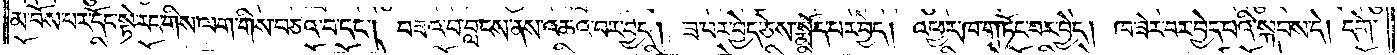མ་བོས་པར་དོང་སྟེ་རང་གིས་ལག་གིས་བཅའ་བ་དང༌། བཟའ་བ་བླངས་ནས་འཆའ་བར་བྱེད། ཟ་བར་བྱེད་ཅེས་སྨོད་པར་བྱེད། འཕྱར་ཁ་གཏོང་བར་བྱེད། ཁ་ཟེར་བར་བྱེད་པའི་སྐབས་དེ། དགེ་
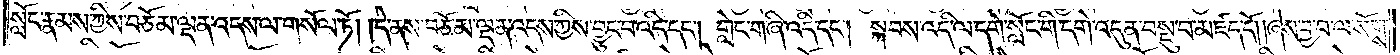སློང་རྣམས་ཀྱིས་བཅོམ་ལྡན་འདས་ལ་གསོལ་ཏོ། །དེ་ནས་བཅོམ་ལྡན་འདས་ཀྱིས་བྱུང་བ་འདི་དང༌། གླེང་བཞི་འདི་དང༌། སྐབས་འདི་ལ་དགེ་སློང་གི་དགེ་འདུན་བསྡུ་བ་མཛད་དོ། །ཞེས་བྱ་བ་ལ་སོགས་
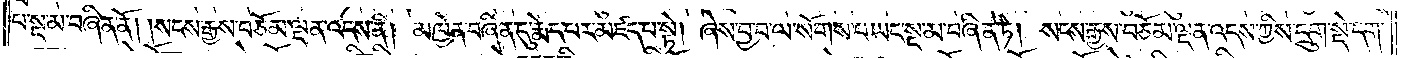པ་སྔ་མ་བཞིན་ནོ། །སངས་རྒྱས་བཅོམ་ལྡན་འདས་ནི། ཁྱིམ་བཞིན་དུ་རྨེད་པར་མཛད་པ་སྟེ། ཞེས་བྱ་བ་ལ་སོགས་པ་ཡང་སྔ་མ་བཞིན་ཏེ། སངས་རྒྱས་བཅོམ་ལྡན་འདས་ཀྱིས་དྲུག་སྡེ་དག་
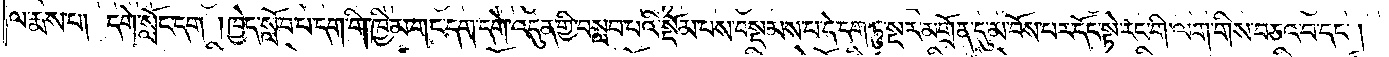ལ་རྨས་པ། དགེ་སློང་དག །ཁྱེད་སློབ་པ་དག་གི་ཁྱིམ་གང་དག་དགེ་འདུན་གྱི་བསླབ་པའི་སྡོམ་པས་བསྡམས་པ་དེ་དག་ཏུ་སྔར་མགྲོན་དུ་མ་བོས་པར་དོང་སྟེ་རང་གི་ལག་གིས་བཅའ་བ་དང༌།
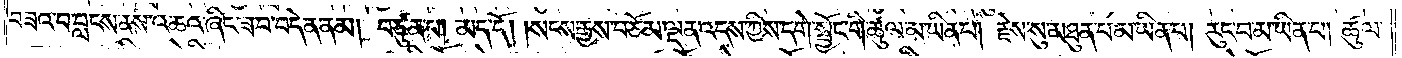བཟའ་བ་བླངས་ནས་འཆའ་ཞིང་ཟ་བ་བདེན་ནམ། བཙུན་པ། མེད་དོ། །སངས་རྒྱས་བཅོམ་ལྡན་འདས་ཀྱིས་དགེ་སྦྱོང་གི་ཚལ་མ་ཡིན་པ། རྗེས་སུ་མཐུན་པ་མ་ཡིན་པ། རུང་བ་མ་ཡིན་པ། ཚུལ་
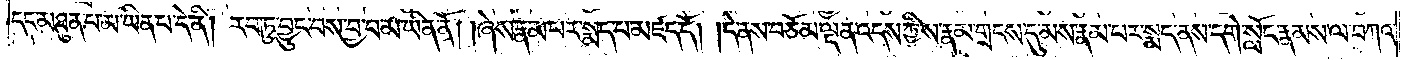དང་མཐུན་པ་མ་ཡིན་པ་དེ་ནི། རབ་ཏུ་བྱུང་བས་བྱ་བ་མ་ཡིན་ནོ། །ཞེས་རྣམ་པར་སྨད་པ་མཛད་དོ། །དེ་ནས་བཅོམ་ལྡན་འདས་ཀྱིས་རྣམ་གྲངས་དུ་མས་རྣམ་པར་སྨད་ནས་དགེ་སློང་རྣམས་ལ་བཀའ་
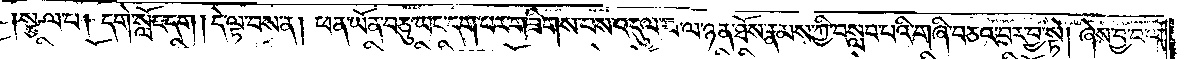སྩལ་པ། དགེ་སློང་དག །དེ་ལྟ་བས་ན། ཕན་ཡོན་བཅུ་ཡང་དག་པར་གཟིགས་པས་འདུལ་བ་ལ་ཉན་ཐོས་རྣམས་ཀྱི་བསླབ་པའི་གཞི་བཅའ་བར་བྱ་སྟེ། ཞེས་བྱ་བ་ལ་
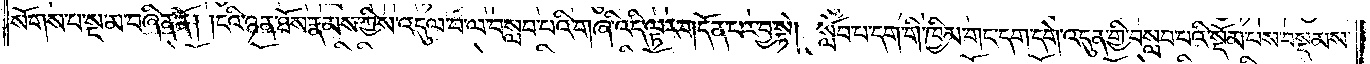སོགས་པ་སྔ་མ་བཞིན་ནོ། །ངའི་ཉན་ཐོས་རྣམས་ཀྱིས་འདུལ་བ་ལ་བསླབ་པའི་གཞི་འདི་ལྟར་གདོན་པར་བྱ་སྟེ། སློབ་པ་དག་གི་ཁྱིམ་གང་དག་དགེ་འདུན་གྱི་བསླབ་པའི་སྡོམ་པས་བསྡམས་
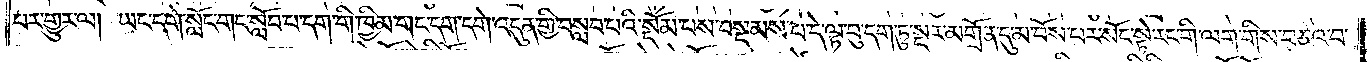པར་གྱུར་ལ། ཡང་དགེ་སློང་གང་སློབ་པ་དག་གི་ཁྱིམ་གང་དག་དགེ་འདུན་གྱི་བསླབ་པའི་སྡོམ་པས་བསྡམས་པ་དེ་ལྟ་བུ་དག་ཏུ་སྔར་མགྲོན་དུ་མ་བོས་པར་སོང་སྟེ་རང་གི་ལག་གིས་བཅའ་བ་
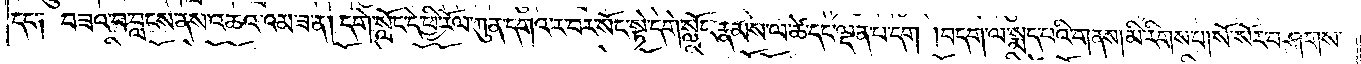དང༌། བཟའ་བ་བླངས་ནས་འཆའ་འམ་ཟ་ན། དགེ་སློང་དེ་ཕྱི་རོལ་ཀུན་དགའ་ར་བར་སོང་སྟེ་དགེ་སློང་རྣམས་ལ་ཚེ་དང་ལྡན་པ་དག །བདག་ལ་སྨད་པའི་གནས། མི་རིགས་པ། སོ་སོར་བཤགས་
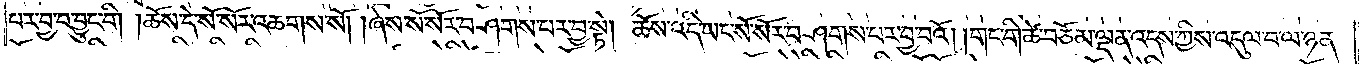པར་བྱ་བ་བྱུང་གི །ཆོས་དེ་སོ་སོར་འཆགས་སོ། །ཞེས་སོ་སོར་བཤགས་པར་བྱ་སྟེ། ཆོས་འདི་ཡང་སོ་སོར་བཤགས་པར་བྱ་བའོ། །གང་གི་ཚེ་བཅོམ་ལྡན་འདས་ཀྱིས་འདུལ་བ་ལ་ཉན་
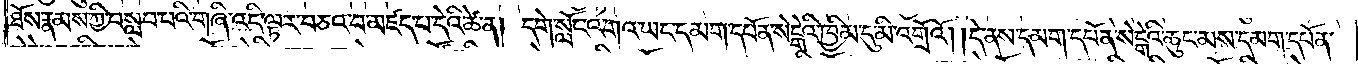ཐོས་རྣམས་ཀྱི་བསླབ་པའི་གཞི་འདི་ལྟར་བཅའ་བ་མཛད་པ་དེའི་ཚེ་ན། དགེ་སློང་འགའ་ཡང་དམག་དཔོན་སེངྒེའི་ཁྱིམ་དུ་མི་འགྲོའོ། །དེ་ནས་དམག་དཔོན་སེངྒེའི་ཆུང་མས་དམག་དཔོན་
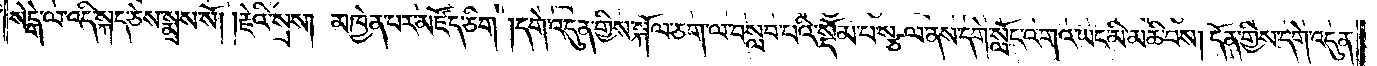སེངྒེ་ལ་འདི་སྐད་ཅེས་སྨྲས་སོ། །རྗེའི་སྲས། མཁྱེན་པར་མཛོད་ཅིག །དགེ་འདུན་གྱིས་སྐོལ་ཅག་ལ་བསླབ་པའི་སྡོམ་པ་སྩལ་ནས་དགེ་སློང་འགའ་ཡང་མི་མཆི་བས། དོན་གྱིས་དགེ་འདུན་
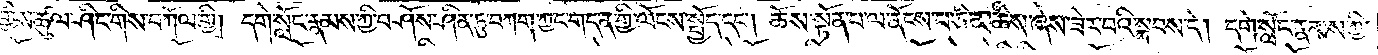གྱིས་ཚུལ་ཤིང་གིས་བཀོལ་གྱི། དགེ་སློང་རྣམས་ཀྱི་བཤོས་ཤིན་ཏུ་བཀག་ཀྱང་གདན་གྱི་ལོངས་སྤྱོད་དང༌། ཆོས་སྟོན་པ་ལ་ནོངས་པ་ཅི་མཆིས་ཞེས་ཟེར་བའི་སྐབས་དེ། དགེ་སློང་རྣམས་ཀྱི་
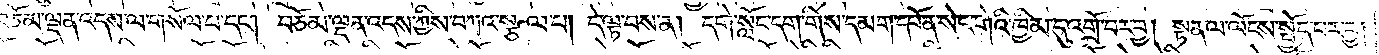བཅོམ་ལྡན་འདས་ལ་གསོལ་པ་དང༌། བཅོམ་ལྡན་འདས་ཀྱིས་བཀའ་སྩལ་པ། དེ་ལྟ་བས་ན། དགེ་སློང་དག་གིས་དམག་དཔོན་སེང་གེའི་ཁྱིམ་དུ་འགྲོ་བར་བྱ། སྟན་ལ་ལོངས་སྤྱོད་པར་བྱ།
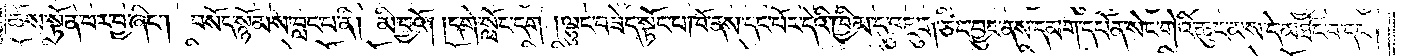ཆོས་སྟོན་པར་བྱ་ཞིང༌། བསོད་སྙོམས་བླང་པ་ནི། མི་བྱའོ། །དགེ་སློང་དག །ལྷུང་བཟེད་སྟོང་པ་ཁོ་ནས་དང་པོར་དེའི་ཁྱིམ་དུ་འཇུག་ཅིང་བྱུང་ནས་དམག་དཔོན་སེང་གེའི་ཆུང་མས་དེ་མཐོང་བ་དང༌།
